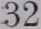32
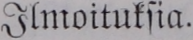Ilmoituksia.
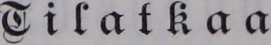Tilatkaa
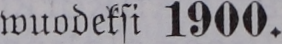wuodeksi 1900.
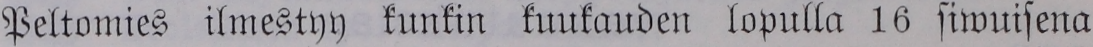Peltomies ilmestyy kunkin kuukauden lopulla 16 siwuisena
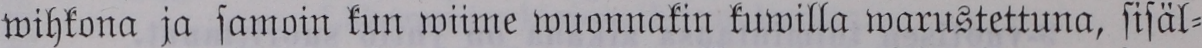wihkona ja samoin kun wiime wuonnakin kuwilla warustettuna, sisäl-
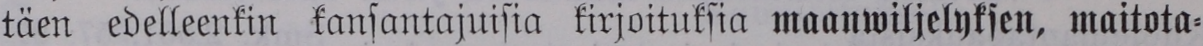täen edelleenkin kansantajuisia kirjoituksia maanwiljelyksen, maitota-
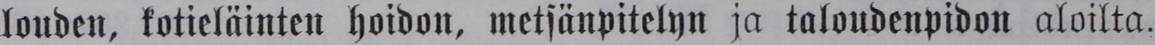louden, kotieläinten hoidon, metsänpitelyn ja taloudenpidon aloilta.
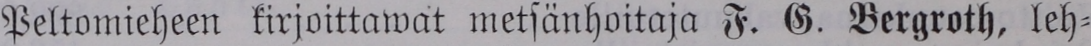Peltomieheen kirjoittawat metsänhoitaja F. G. Bergroth, leh-
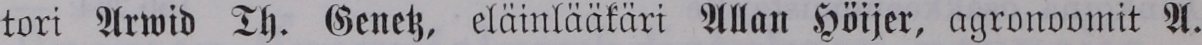tori Arwid Th. Genetz, eläinlääkäri Allan Höijer, agronoomit A.
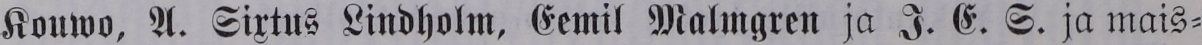Kouwo, A. Sixtus Lindholm, Eemil Malmgren ja I. E. S. ja mais-
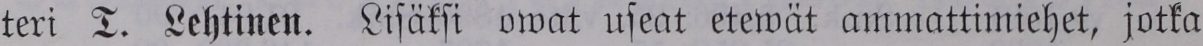teri T. Lehtinen. Lisäksi owat useat etewät ammattimiehet, jotka
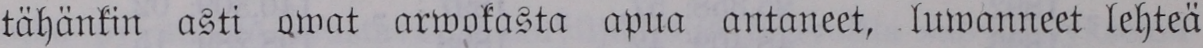tähänkin asti owat arwokasta apua antaneet, luwanneet lehteä
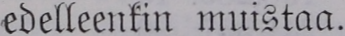edelleenkin muistaa.
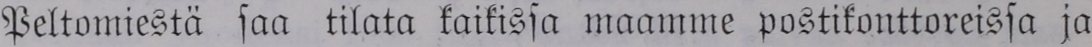Peltomiestä saa tilata kaikissa maamme postikonttoreissa ja
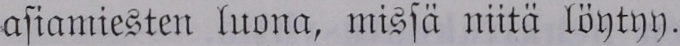asiamiesten luona, missä niitä löytyy.
